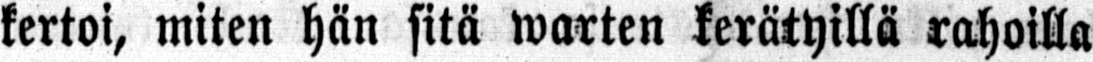kertoi, miten hän sitä warten kerätyillä rahoilla
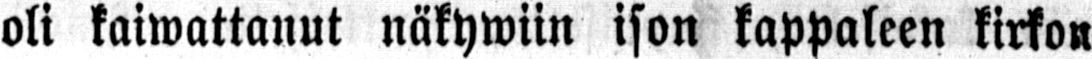oli kaiwattanut näkywiin ison kappaleen kirkon
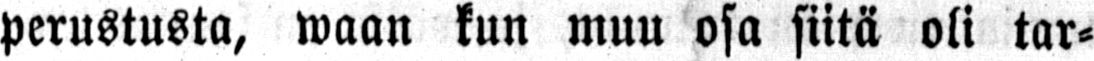perustusta, waan kun muu osa siitä oli tar-
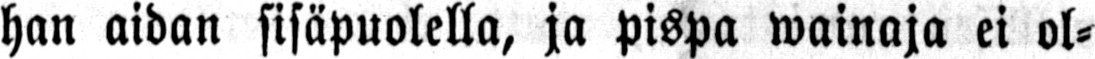han aidan sisäpuolella, ja pispa wainaja ei ol-
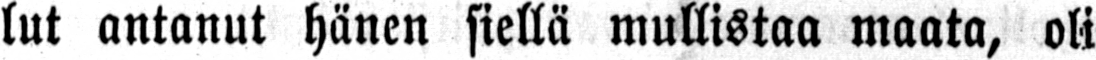lut antanut hänen siellä mullistaa maata, oli
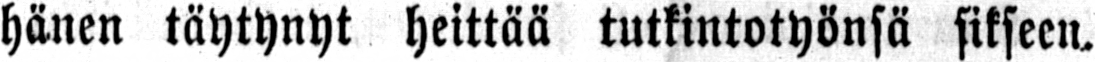hänen täytynyt heittää tutkintotyönsä sikseen.
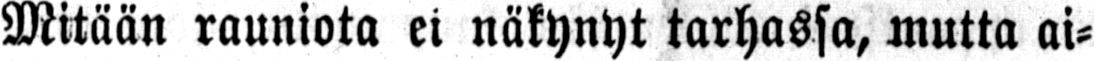Mitään rauniota ei näkynyt tarhassa, mutta ai-
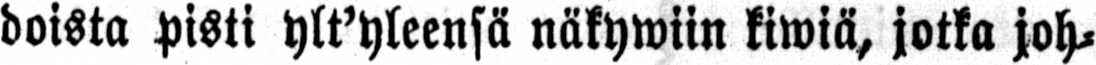doista pisti ylt'yleensä näkywiin kiwiä, jotka joh-
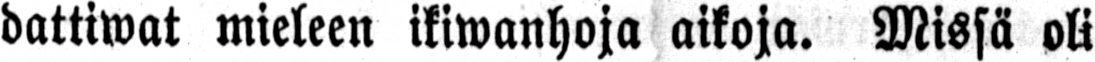dattiwat mieleen ikiwanhoja aikoja. Missä oli
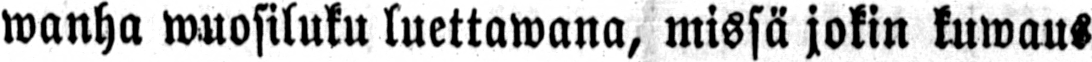wanha wuosiluku luettawana, missä jokin kuwaus
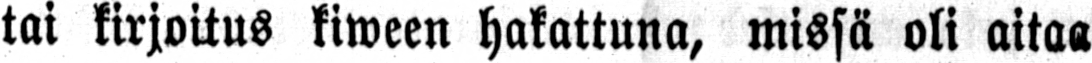tai kirjoitus kiween hakattuna, missä oli aitaa
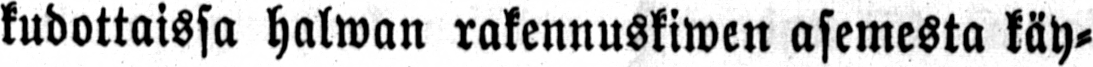kudottaissa halwan rakennuskiwen asemesta käy-
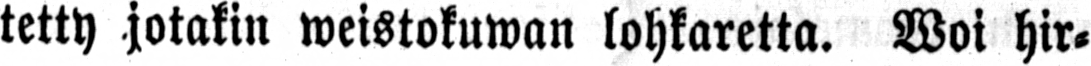tetty jotakin weistokuwan lohkaretta. Woi hir-
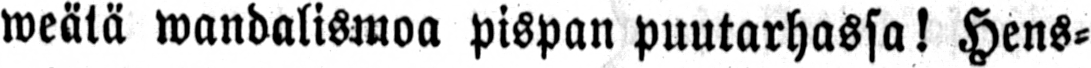weätä wandalismoa pispan puutarhassa! Hens-
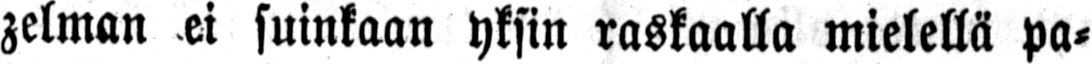zelman ei suinkaan yksin raskaalla mielellä pa-
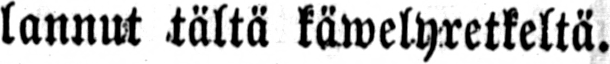lannut tältä käwelyretkeltä.
